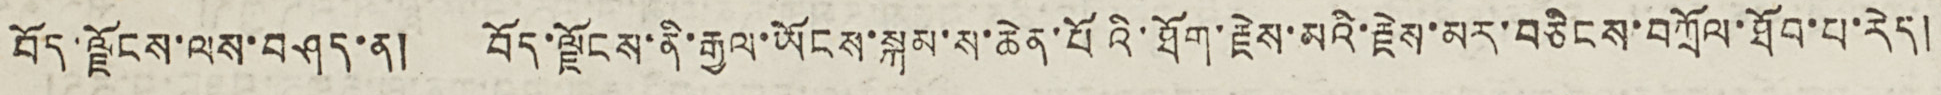བོད་ལྗོངས་ལས་བཤད་ན། བོད་ལྗོངས་ནི་རྒྱལ་ཡོངས་སྐམ་ས་ཆེན་པོའི་ཐོག་རྗེས་མའི་རྗེས་མར་བཅིངས་བཀྲོལ་ཐོབ་པ་རེད།
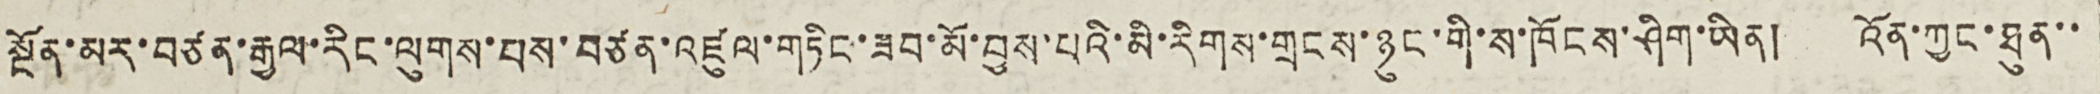སྔོན་མར་བཙན་རྒྱལ་རིང་ལུགས་བས་བཙན་འཛུལ་གཏིང་ཟབ་མོ་བྱས་པའི་མི་རིགས་གྲངས་ཉུང་གི་ས་ཁོངས་ཤིག་ཡིན། འོན་ཀྱང་ཐུན་་
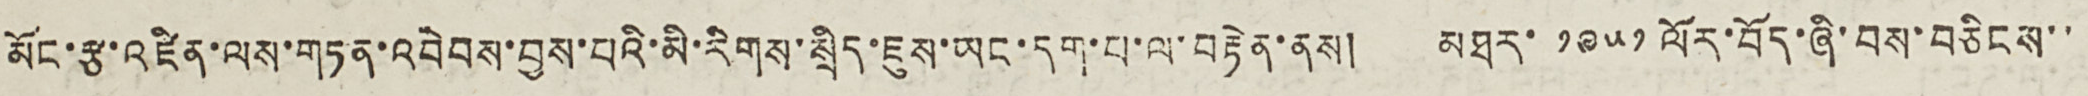མོང་རྩ་འཛིན་ལས་གཏན་འབེབས་བྱས་པའི་མི་རིགས་སྲིད་ཇུས་ཡང་དག་པ་ལ་བརྟེན་ནས། མཐར་ ༡༩༥༡ ལོར་བོད་ཞི་བས་བཅིངས་་
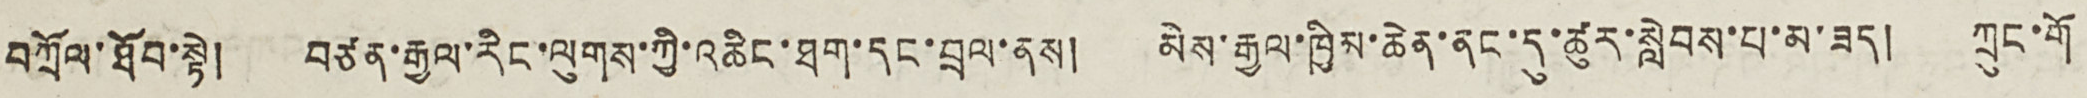བཀྲོལ་ཐོབ་སྟེ། བཙན་རྒྱལ་རིང་ལུགས་ཀྱི་འཆིང་ཐག་དང་བྲལ་ནས། མེས་རྒྱལ་ཁྱིམ་ཆེན་ནང་དུ་ཚུར་སླེབས་པ་མ་ཟད། ཀྲུང་གོ
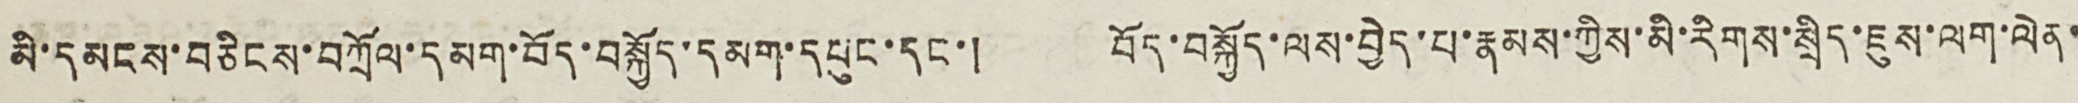མི་དམངས་བཅིངས་བཀྲོལ་དམག་བོད་བསྐྱོད་དམག་དཔུང་དང་། བོད་བསྐྱོད་ལས་བྱེད་པ་རྣམས་ཀྱིས་མི་རིགས་སྲིད་ཇུས་ལག་ལེན་
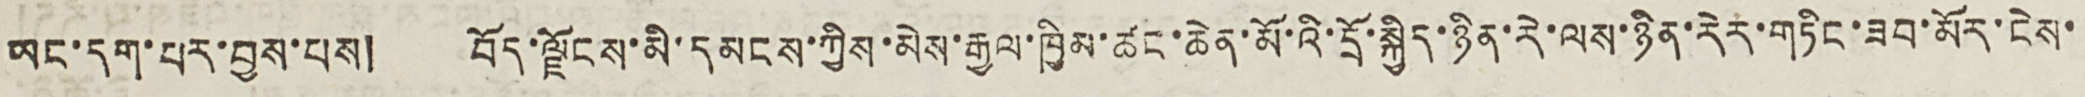ཡང་དག་པར་བྱས་པས། བོད་ལྗོངས་མི་དམངས་ཀྱིས་མེས་རྒྱལ་ཁྱིམ་ཚང་ཆེན་མོ་འི་དྲོ་སྐྱིད་ཉིན་རེ་ལས་ཉིན་རེར་གཏིང་ཟབ་མོར་ངེས་
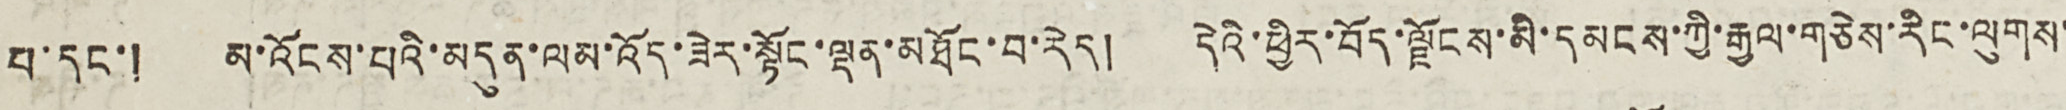བ་དང་། མ་འོངས་པའི་མདུན་ལམ་འོད་ཟེར་སྟོང་ལྡན་མཐོང་བ་རེད། དེའི་ཕྱིར་བོད་ལྗོངས་མི་དམངས་ཀྱི་རྒྱལ་གཅེས་རིང་ལུགས་
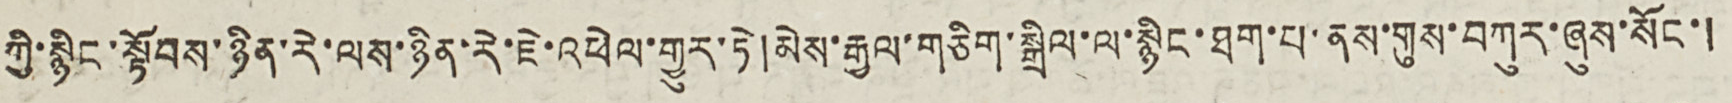ཀྱི་སྙིང་སྟོབས་ཉིན་རེ་ལས་ཉིན་རེ་ཇེ་འཕེལ་གྱུར་ཏེ། མེས་རྒྱལ་གཅིག་སྒྲིལ་ལ་སྙིང་ཐག་པ་ནས་གུས་བཀུར་ཞུས་སོང་།
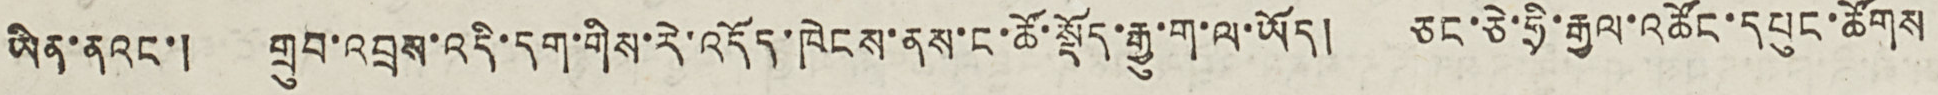ཡིན་ནའང་། གྲུབ་འབྲས་འདི་དག་གིས་རེ་འདོད་ཁེངས་ནས་ང་ཚོ་སྡོད་རྒྱུ་ག་ལ་ཡོད། ཅང་ཅེ་ཧྲི་རྒྱལ་འཚོང་དཔུང་ཚོགས
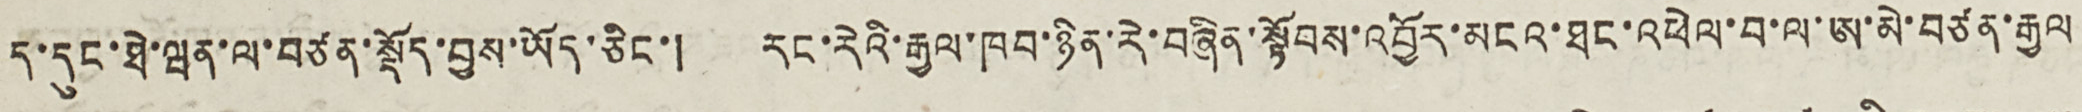ད་དུང་ཐེ་ཝན་ལ་བཙན་སྡོད་བྱས་ཡོད་ཅིང་། རང་རེའི་རྒྱལ་ཁབ་ཉིན་རེ་བཞིན་སྟོབས་འབྱོར་མངའ་ཐང་འཕེལ་བ་ལ་ཨ་མེ་བཙན་རྒྱལ
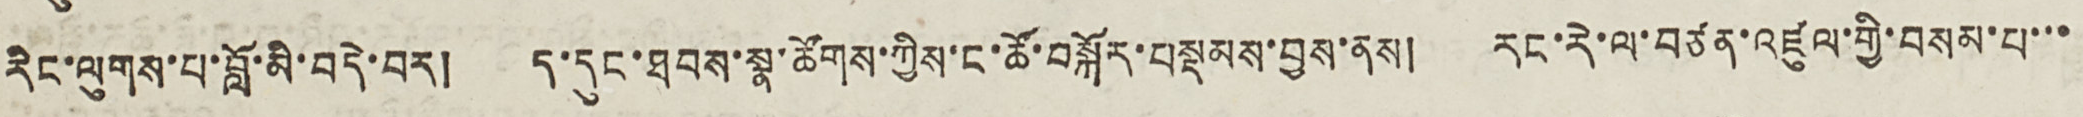རིང་ལུགས་པ་བློ་མི་བདེ་བར། ད་དུང་ཐབས་སྣ་ཚོགས་ཀྱིས་ང་ཚོ་བསྐོར་བསྡམས་བྱས་ནས། རང་རེ་ལ་བཙན་འཛུལ་གྱི་བསམ་པ་་་
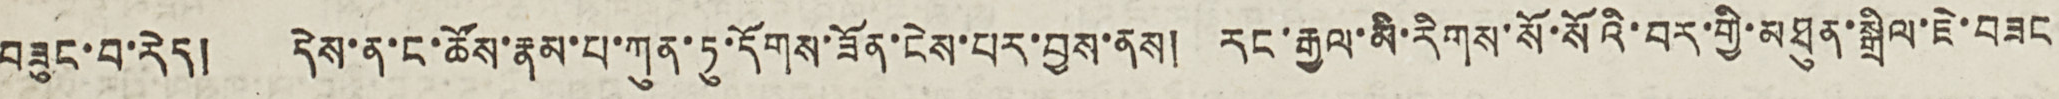བཟུང་བ་རེད། དེས་ན་ང་ཚོས་རྣམ་པ་ཀུན་ཏུ་དོགས་ཟོན་ངེས་པར་བྱས་ནས། རང་རྒྱལ་མི་རིགས་སོ་སོའི་བར་གྱི་མཐུན་སྒྲིལ་ཇེ་བཟང
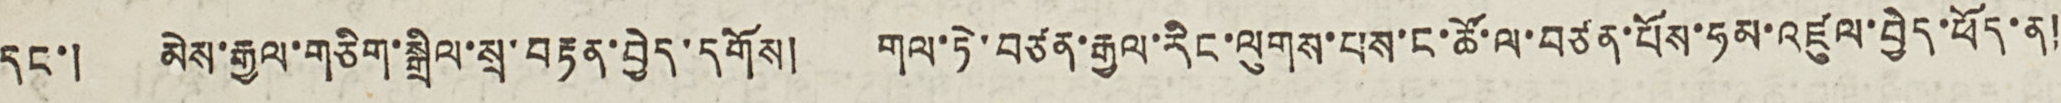དང་། མེས་རྒྱལ་གཅིག་སྒྲིལ་སྲ་བརྟན་བྱེད་དགོས། གལ་ཏེ་བཙན་རྒྱལ་རིང་ལུགས་པས་ང་ཚོ་ལ་བཙན་པོས་ཧམ་འཛུལ་བྱེད་ཕོད་ན།
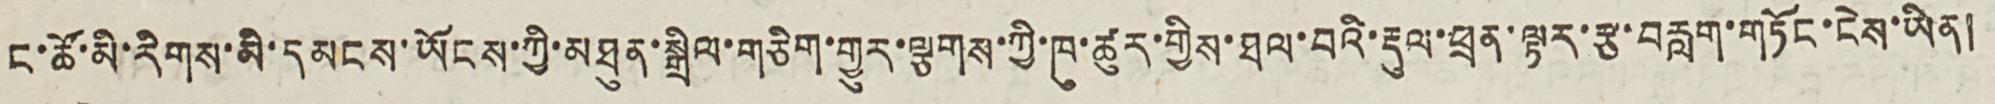ང་ཚོ་མི་རིགས་མི་དམངས་ཡོངས་ཀྱི་མཐུན་སྒྲིལ་གཅིག་གྱུར་ལྕགས་ཀྱི་ཁུ་ཚུར་གྱིས་ཐལ་བའི་རྡུལ་ཕྲན་ལྟར་རྩ་བརླག་གཏོང་ངེས་ཡིན།
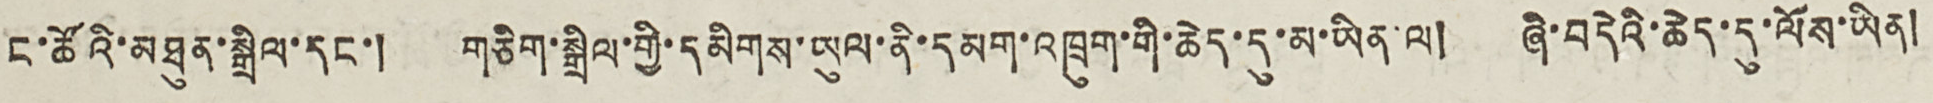ང་ཚོའི་མཐུན་སྒྲིལ་དང་། གཅིག་སྒྲིལ་གྱི་དམིགས་ཡུལ་ནི་དམག་འཁྲུག་གི་ཆེད་དུ་མ་ཡིན་ལ། ཞི་བདེའི་ཆེད་དུ་ལོས་ཡིན།
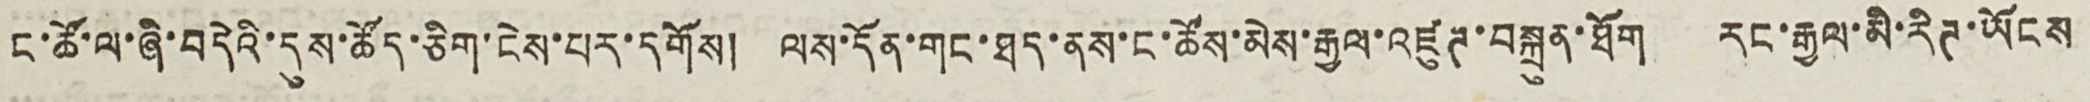ང་ཚོ་ལ་ཞི་བདེའི་དུས་ཚོད་ཅིག་ངེས་པར་དགོས། ལས་དོན་གང་ཐད་ནས་ང་ཚོས་མེས་རྒྱལ་འཛུཊ་བསྐྲུན་ཐོག རང་རྒྱལ་མི་རིཊ་ཡོངས
